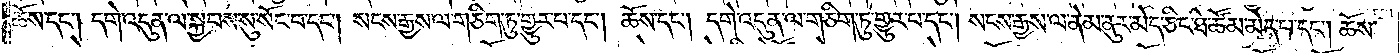ཆོས་དང༌། དགེ་འདུན་ལ་སྐྱབས་སུ་སོང་བ་དང༌། སངས་རྒྱས་ལ་གཅིག་ཏུ་གྱུར་པ་དང༌། ཆོས་དང༌། དགེ་འདུན་ལ་གཅིག་ཏུ་གྱུར་པ་དང༌། སངས་རྒྱས་ལ་ནེམ་ནུར་མེད་ཅིང་ཐེ་ཚོམ་མེད་པ་དང༌། ཆོས་
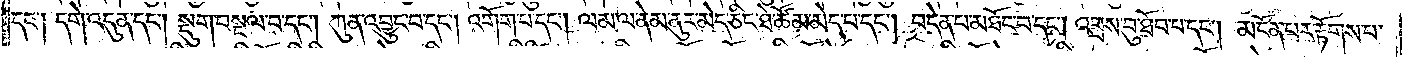དང༌། དགེ་འདུན་དང༌། སྡུག་བསྔལ་བ་དང༌། ཀུན་འབྱུང་བ་དང༌། འགོག་པ་དང༌། ལམ་ལ་ནེམ་ནུར་མེད་ཅིང་ཐེ་ཚོམ་མེད་པ་དང༌། བདེན་པ་མཐོང་བ་དང༌། འབྲས་བུ་ཐོབ་པ་དང༌། མངོན་པ་རྟོགས་པ་
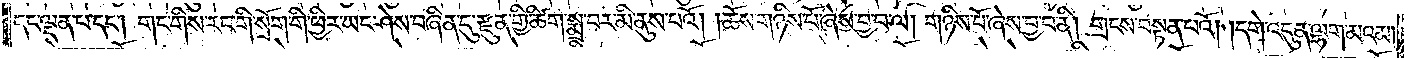དང་ལྡན་པ་དང༌། གང་གིས་རང་གི་སྲོག་གི་ཕྱིར་ཡང་ཤེས་བཞིན་དུ་རྫུན་གྱི་ཚིག་སྨྲ་བར་མི་ནུས་པའོ། །ཆོས་གཉིས་པོ་ཞེས་བྱ་བ་ལ། གཉིས་པོ་ཞེས་བྱ་བ་ནི། གྲངས་བསྟན་པའོ། །དགེ་འདུན་ལྷག་མའམ།
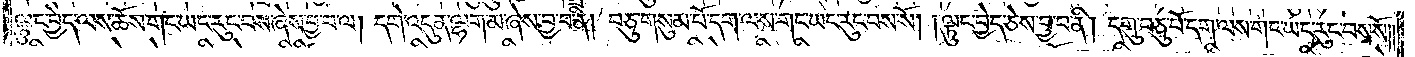ལྟུང་བྱེད་ལས་ཆོས་གང་ཡང་རུང་བས་ཞེས་བྱ་བ་ལ། དགེ་འདུན་ལྷག་མ་ཞེས་བྱ་བ་ནི། བཅུ་གསུམ་པོ་དག་ལས་གང་ཡང་རུང་བས་སོ། །ལྟུང་བྱེད་ཅེས་བྱ་བ་ནི། དགུ་བཅུ་པོ་དག་ལས་གང་ཡང་རུང་བས་སོ། །
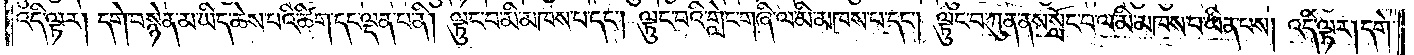འདི་ལྟར། དགེ་བསྙེན་མ་ཡིད་ཆེས་པའི་ཚིག་དང་ལྡན་པ་ནི། ལྟུང་བ་མི་མཁས་པ་དང༌། ལྟུང་བའི་གླེང་གཞི་ལ་མི་མཁས་པ་དང༌། ལྟུང་བ་ཀུན་ནས་སློང་བ་ལ་མི་མཁས་པ་ཡིན་པས། འདི་ལྟར། དགེ་
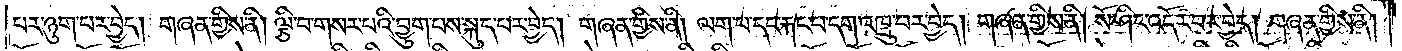པར་ཉུག་པར་བྱེད། གཞན་གྱིས་ནི། ལྕི་བ་གསར་པའི་བྱུག་པས་སྐུད་པར་བྱེད། གཞན་གྱིས་ནི། ལག་པ་དང་རྐང་པ་དག་འཁྲུ་བར་བྱེད། གཞན་གྱིས་ནི། སོ་ཤིང་འདོར་བར་བྱེད། གཞན་གྱིས་ནི།
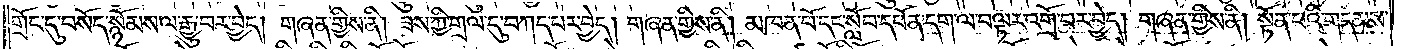གྲོང་དུ་བསོད་སྙོམས་ལ་རྒྱུ་བར་བྱེད། གཞན་གྱིས་ནི། ཟས་ཀྱི་གྲལ་དུ་བཀད་པར་བྱེད། གཞན་གྱིས་ནི། མཁན་པོ་དང་སློབ་དཔོན་དག་ལ་ལྟར་འགྲོ་བར་བྱེད། གཞན་གྱིས་ནི། སྟོན་པའི་གདམས་
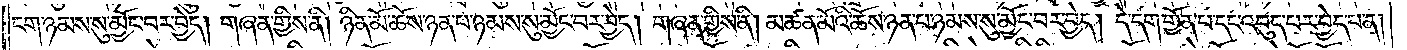ངག་ཉམས་སུ་མྱོང་བར་བྱེད། གཞན་གྱིས་ནི། ཉིན་མོ་ཆོས་ཉན་པ་ཉམས་སུ་མྱོང་བར་བྱེད། གཞན་གྱིས་ནི། མཚན་མོའི་ཆོས་ཉན་པ་ཉམས་སུ་མྱོང་བར་བྱེད། དེ་དག་གྱོན་པ་དང་འབུད་པར་བྱེད་པ་ན།
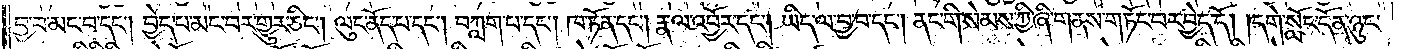བྱ་བ་མང་བ་དང༌། བྱེད་པ་མང་བར་གྱུར་ཅིང༌། ལུང་ནོད་པ་དང༌། བཀླག་པ་དང༌། ཁ་ཏོན་དང་། རྣལ་འབྱོར་དང༌། ཡིད་ལ་བྱ་བ་དང༌། ནང་གི་སེམས་ཀྱི་ཞི་གནས་གཏོང་བར་བྱེད་དོ། །དགེ་སློང་དོན་ཉུང་
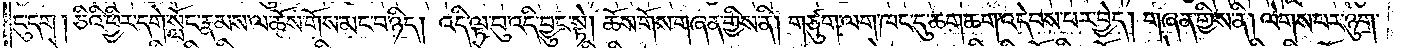ངུ་དག །ཅིའི་ཕྱིར་དགེ་སློང་རྣམས་ལ་ཆོས་གོས་མང་བ་ཉིད། འདི་ལྟ་བུ་འདི་བྱུང་སྟེ། ཆོས་གོས་གཞན་གྱིས་ནི། གཙུག་ལག་ཁང་དུ་ཆག་ཆག་འདེབས་པར་བྱེད། གཞན་གྱིས་ནི། ལེགས་པར་ཉུག་
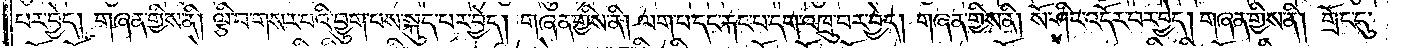པར་བྱེད། གཞན་གྱིས་ནི། ལྕི་བ་གསར་པའི་བྱུག་པས་སྐུད་པར་བྱེད། གཞན་གྱིས་ནི། ལག་པ་དང་རྐང་པ་དག་འཁྲུ་བར་བྱེད། གཞན་གྱིས་ནི། སོ་ཤིང་འདོར་བར་བྱེད། གཞན་གྱིས་ནི། གྲོང་དུ་
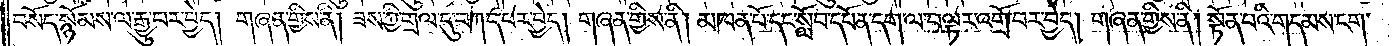བསོད་སྙོམས་ལ་རྒྱུ་བར་བྱེད། གཞན་གྱིས་ནི། ཟས་ཀྱི་གྲལ་དུ་བཀད་པར་བྱེད། གཞན་གྱིས་ནི། མཁན་པོ་དང་སློབ་དཔོན་དག་ལ་བལྟར་འགྲོ་བར་བྱེད། གཞན་གྱིས་ནི། སྟོན་པའི་གདམས་ངག་
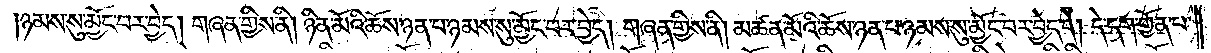ཉམས་སུ་མྱོང་བར་བྱེད། གཞན་གྱིས་ནི། ཉིན་མོའི་ཆོས་ཉན་པ་ཉམས་སུ་མྱོང་བར་བྱེད། གཞན་གྱིས་ནི། མཚན་མོའི་ཆོས་ཉན་པ་ཉམས་སུ་མྱོང་བར་བྱེད་དེ། དེ་དག་གྱོན་པ་
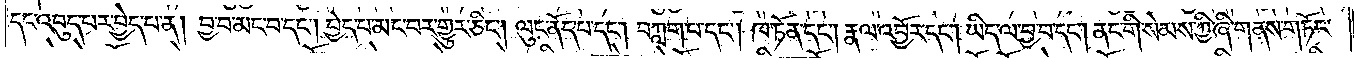དང་འབུད་པར་བྱེད་པ་ན། བྱ་བ་མང་བ་དང༌། བྱེད་པ་མང་བར་གྱུར་ཅིང༌། ལུང་ནོད་པ་དང༌། བཀླག་པ་དང༌། ཁ་ཏོན་དང༌། རྣལ་འབྱོར་དང༌། ཡིད་ལ་བྱ་བ་དང༌། ནང་གི་སེམས་ཀྱི་ཞི་གནས་གཏོང་
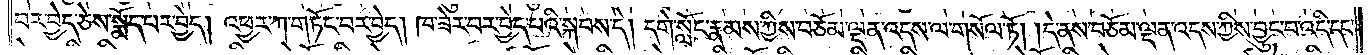བར་བྱེད་ཅེས་སྨོད་པར་བྱེད། འཕྱར་ཀ་གཏོང་བར་བྱེད། ཁ་ཟེར་བར་བྱེད་པའི་སྐབས་དེ། དགེ་སློང་རྣམས་ཀྱིས་བཅོམ་ལྡན་འདས་ལ་གསོལ་ཏོ། །དེ་ནས་བཅོམ་ལྡན་འདས་ཀྱིས་བྱུང་བ་འདི་དང་
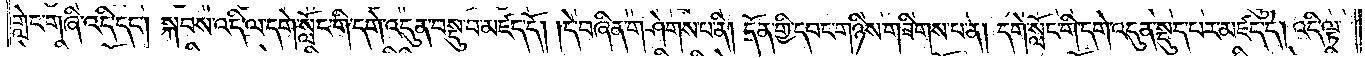གླེང་གཞི་འདི་དང༌། སྐབས་འདི་ལ་དགེ་སློང་གི་དགེ་འདུན་བསྡུ་བ་མཛད་དོ། །དེ་བཞིན་གཤེགས་པ་ནི། དོན་གྱི་དབང་གཉིས་གཟིགས་པ་ན། དགེ་སློང་གི་དགེ་འདུན་སྡུད་པར་མཛད་དེ། འདི་ལྟ་
